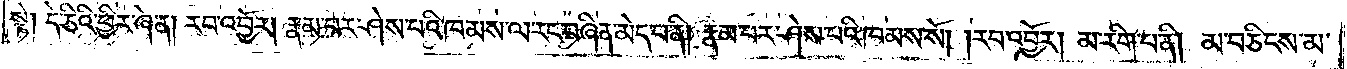སྟེ། དེ་ཅིའི་ཕྱིར་ཞེ་ན། རབ་འབྱོར། རྣམ་པར་ཤེས་པའི་ཁམས་ལ་རང་བཞིན་མེད་པ་ནི། རྣམ་པར་ཤེས་པའི་ཁམས་སོ། །རབ་འབྱོར། མ་རིག་པ་ནི། མ་བཅིངས་མ་
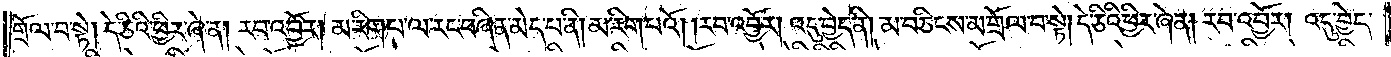གྲོལ་བ་སྟེ། དེ་ཅིའི་ཕྱིར་ཞེ་ན། རབ་འབྱོར། མ་རིག་པ་ལ་རང་བཞིན་མེད་པ་ནི། མ་རིག་པའོ། །རབ་འབྱོར། འདུ་བྱེད་ནི། མ་བཅིངས་མ་གྲོལ་བ་སྟེ། དེ་ཅིའི་ཕྱིར་ཞེ་ན། རབ་འབྱོར། འདུ་བྱེད་
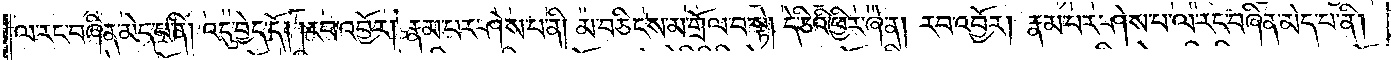ལ་རང་བཞིན་མེད་པ་ནི། འདུ་བྱེད་དོ། །རབ་འབྱོར། རྣམ་པར་ཤེས་པ་ནི། མ་བཅིངས་མ་གྲོལ་བ་སྟེ། དེ་ཅིའི་ཕྱིར་ཞེ་ན། རབ་འབྱོར། རྣམ་པར་ཤེས་པ་ལ་རང་བཞིན་མེད་པ་ནི།
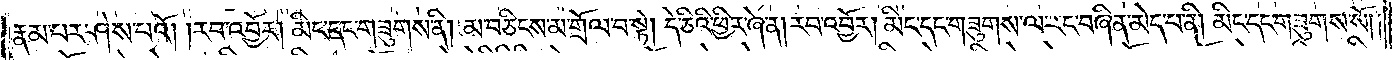རྣམ་པར་ཤེས་པའོ། །རབ་འབྱོར། མིང་དང་གཟུགས་ནི། མ་བཅིངས་མ་གྲོལ་བ་སྟེ། དེ་ཅིའི་ཕྱིར་ཞེ་ན། རབ་འབྱོར། མིང་དང་གཟུགས་ལ་རང་བཞིན་མེད་པ་ནི། མིང་དང་གཟུགས་སོ༎
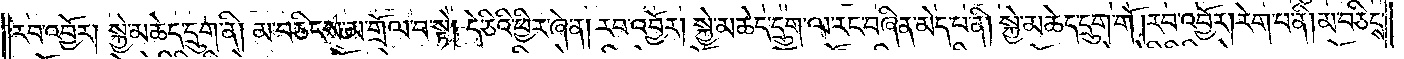རབ་འབྱོར། སྐྱེ་མཆེད་དྲུག་ནི། མ་བཅིངས་མ་གྲོལ་བ་སྟེ། དེ་ཅིའི་ཕྱིར་ཞེ་ན། རབ་འབྱོར། སྐྱེ་མཆེད་དྲུག་ལ་རང་བཞིན་མེད་པ་ནི། སྐྱེ་མཆེད་དྲུག་གོ །རབ་འབྱོར། རེག་པ་ནི། མ་བཅིངས་
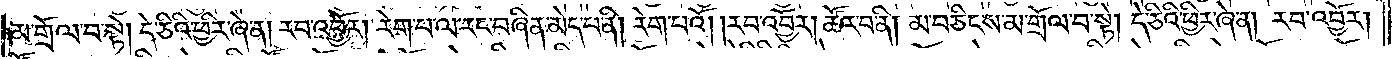མ་གྲོལ་བ་སྟེ། དེ་ཅིའི་ཕྱིར་ཞེ་ན། རབ་འབྱོར། རེག་པ་ལ་རང་བཞིན་མེད་པ་ནི། རེག་པའོ། །རབ་འབྱོར། ཚོར་བ་ནི། མ་བཅིངས་མ་གྲོལ་བ་སྟེ། དེ་ཅིའི་ཕྱིར་ཞེ་ན། རབ་འབྱོར།
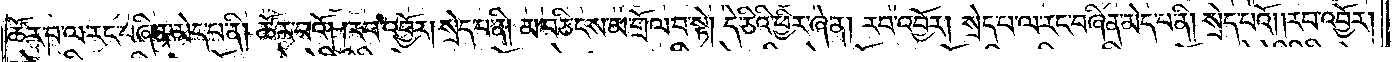ཚོར་བ་ལ་རང་བཞིན་མེད་པ་ནི། ཚོར་བའོ། །རབ་འབྱོར། སྲེད་པ་ནི། མ་བཅིངས་མ་གྲོལ་བ་སྟེ། དེ་ཅིའི་ཕྱིར་ཞེ་ན། རབ་འབྱོར། སྲེད་པ་ལ་རང་བཞིན་མེད་པ་ནི། སྲེད་པའོ། །རབ་འབྱོར།
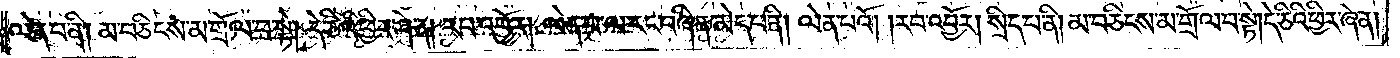ལེན་པ་ནི། མ་བཅིངས་མ་གྲོལ་བ་སྟེ། དེ་ཅིའི་ཕྱིར་ཞེ་ན། རབ་འབྱོར། ལེན་པ་ལ་རང་བཞིན་མེད་པ་ནི། ལེན་པའོ། །རབ་འབྱོར། སྲིད་པ་ནི། མ་བཅིངས་མ་གྲོལ་བ་སྟེ། དེ་ཅིའི་ཕྱིར་ཞེ་ན།
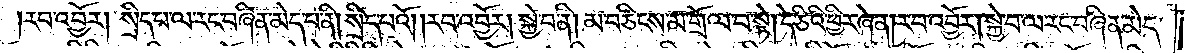རབ་འབྱོར། སྲིད་པ་ལ་རང་བཞིན་མེད་པ་ནི། སྲིད་པའོ། །རབ་འབྱོར། སྐྱེ་བ་ནི། མ་བཅིངས་མ་གྲོལ་བ་སྟེ། དེ་ཅིའི་ཕྱིར་ཞེ་ན། རབ་འབྱོར། སྐྱེ་བ་ལ་རང་བཞིན་མེད་
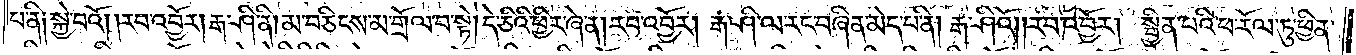པ་ནི༑ སྐྱེ་བའོ། །རབ་འབྱོར། རྒ་ཤི་ནི། མ་བཅིངས་མ་གྲོལ་བ་སྟེ། དེ་ཅིའི་ཕྱིར་ཞེ་ན། རབ་འབྱོར། རྒ་ཤི་ལ་རང་བཞིན་མེད་པ་ནི། རྒ་ཤིའོ། །རབ་འབྱོར། སྦྱིན་པའི་ཕ་རོལ་ཏུ་ཕྱིན་
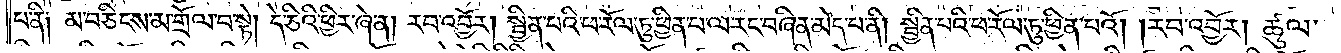པ་ནི༑ མ་བཅིངས་མ་གྲོལ་བ་སྟེ། དེ་ཅིའི་ཕྱིར་ཞེ་ན། རབ་འབྱོར། སྦྱིན་པའི་ཕ་རོལ་ཏུ་ཕྱིན་པ་ལ་རང་བཞིན་མེད་པ་ནི། སྦྱིན་པའི་ཕ་རོལ་ཏུ་ཕྱིན་པའོ། །རབ་འབྱོར། ཚུལ་
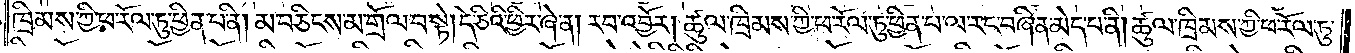ཁྲིམས་ཀྱི་ཕ་རོལ་ཏུ་ཕྱིན་པ་ནི། མ་བཅིངས་མ་གྲོལ་བ་སྟེ། དེ་ཅིའི་ཕྱིར་ཞེ་ན། རབ་འབྱོར། ཚུལ་ཁྲིམས་ཀྱི་ཕ་རོལ་ཏུ་ཕྱིན་པ་ལ་རང་བཞིན་མེད་པ་ནི། ཚུལ་ཁྲིམས་ཀྱི་ཕ་རོལ་ཏུ་
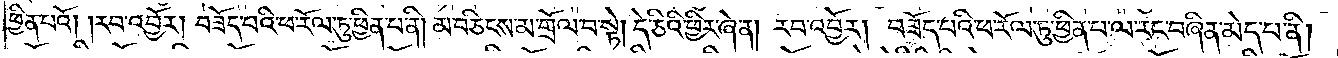ཕྱིན་པའོ། །རབ་འབྱོར། བཟོད་པའི་ཕ་རོལ་ཏུ་ཕྱིན་པ་ནི། མ་བཅིངས་མ་གྲོལ་བ་སྟེ། དེ་ཅིའི་ཕྱིར་ཞེ་ན། རབ་འབྱོར། བཟོད་པའི་ཕ་རོལ་ཏུ་ཕྱིན་པ་ལ་རང་བཞིན་མེད་པ་ནི།
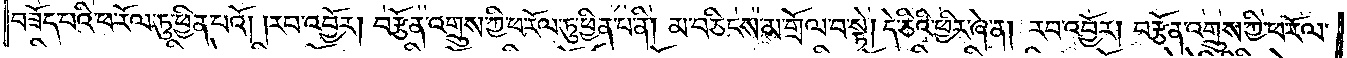བཟོད་པའི་ཕ་རོལ་ཏུ་ཕྱིན་པའོ། །རབ་འབྱོར། བརྩོན་འགྲུས་ཀྱི་ཕ་རོལ་ཏུ་ཕྱིན་པ་ནི། མ་བཅིངས་མ་གྲོལ་བ་སྟེ། དེ་ཅིའི་ཕྱིར་ཞེ་ན། རབ་འབྱོར། བརྩོན་འགྲུས་ཀྱི་ཕ་རོལ་
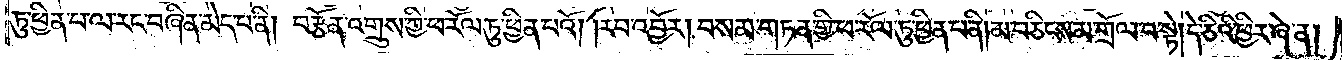ཏུ་ཕྱིན་པ་ལ་རང་བཞིན་མེད་པ་ནི། བརྩོན་འགྲུས་ཀྱི་ཕ་རོལ་ཏུ་ཕྱིན་པའོ། །རབ་འབྱོར། བསམ་གཏན་གྱི་ཕ་རོལ་ཏུ་ཕྱིན་པ་ནི། མ་བཅིངས་མ་གྲོལ་བ་སྟེ། དེ་ཅིའི་ཕྱིར་ཞེ་ན།
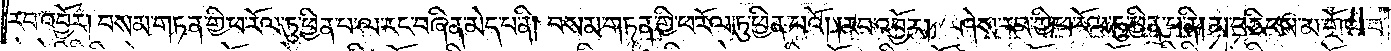རབ་འབྱོར། བསམ་གཏན་གྱི་ཕ་རོལ་ཏུ་ཕྱིན་པ་ལ་རང་བཞིན་མེད་པ་ནི། བསམ་གཏན་གྱི་ཕ་རོལ་ཏུ་ཕྱིན་པའོ། །རབ་འབྱོར། ཤེས་རབ་ཀྱི་ཕ་རོལ་ཏུ་ཕྱིན་པ་ནི། མ་བཅིངས་མ་གྲོལ་བ་
